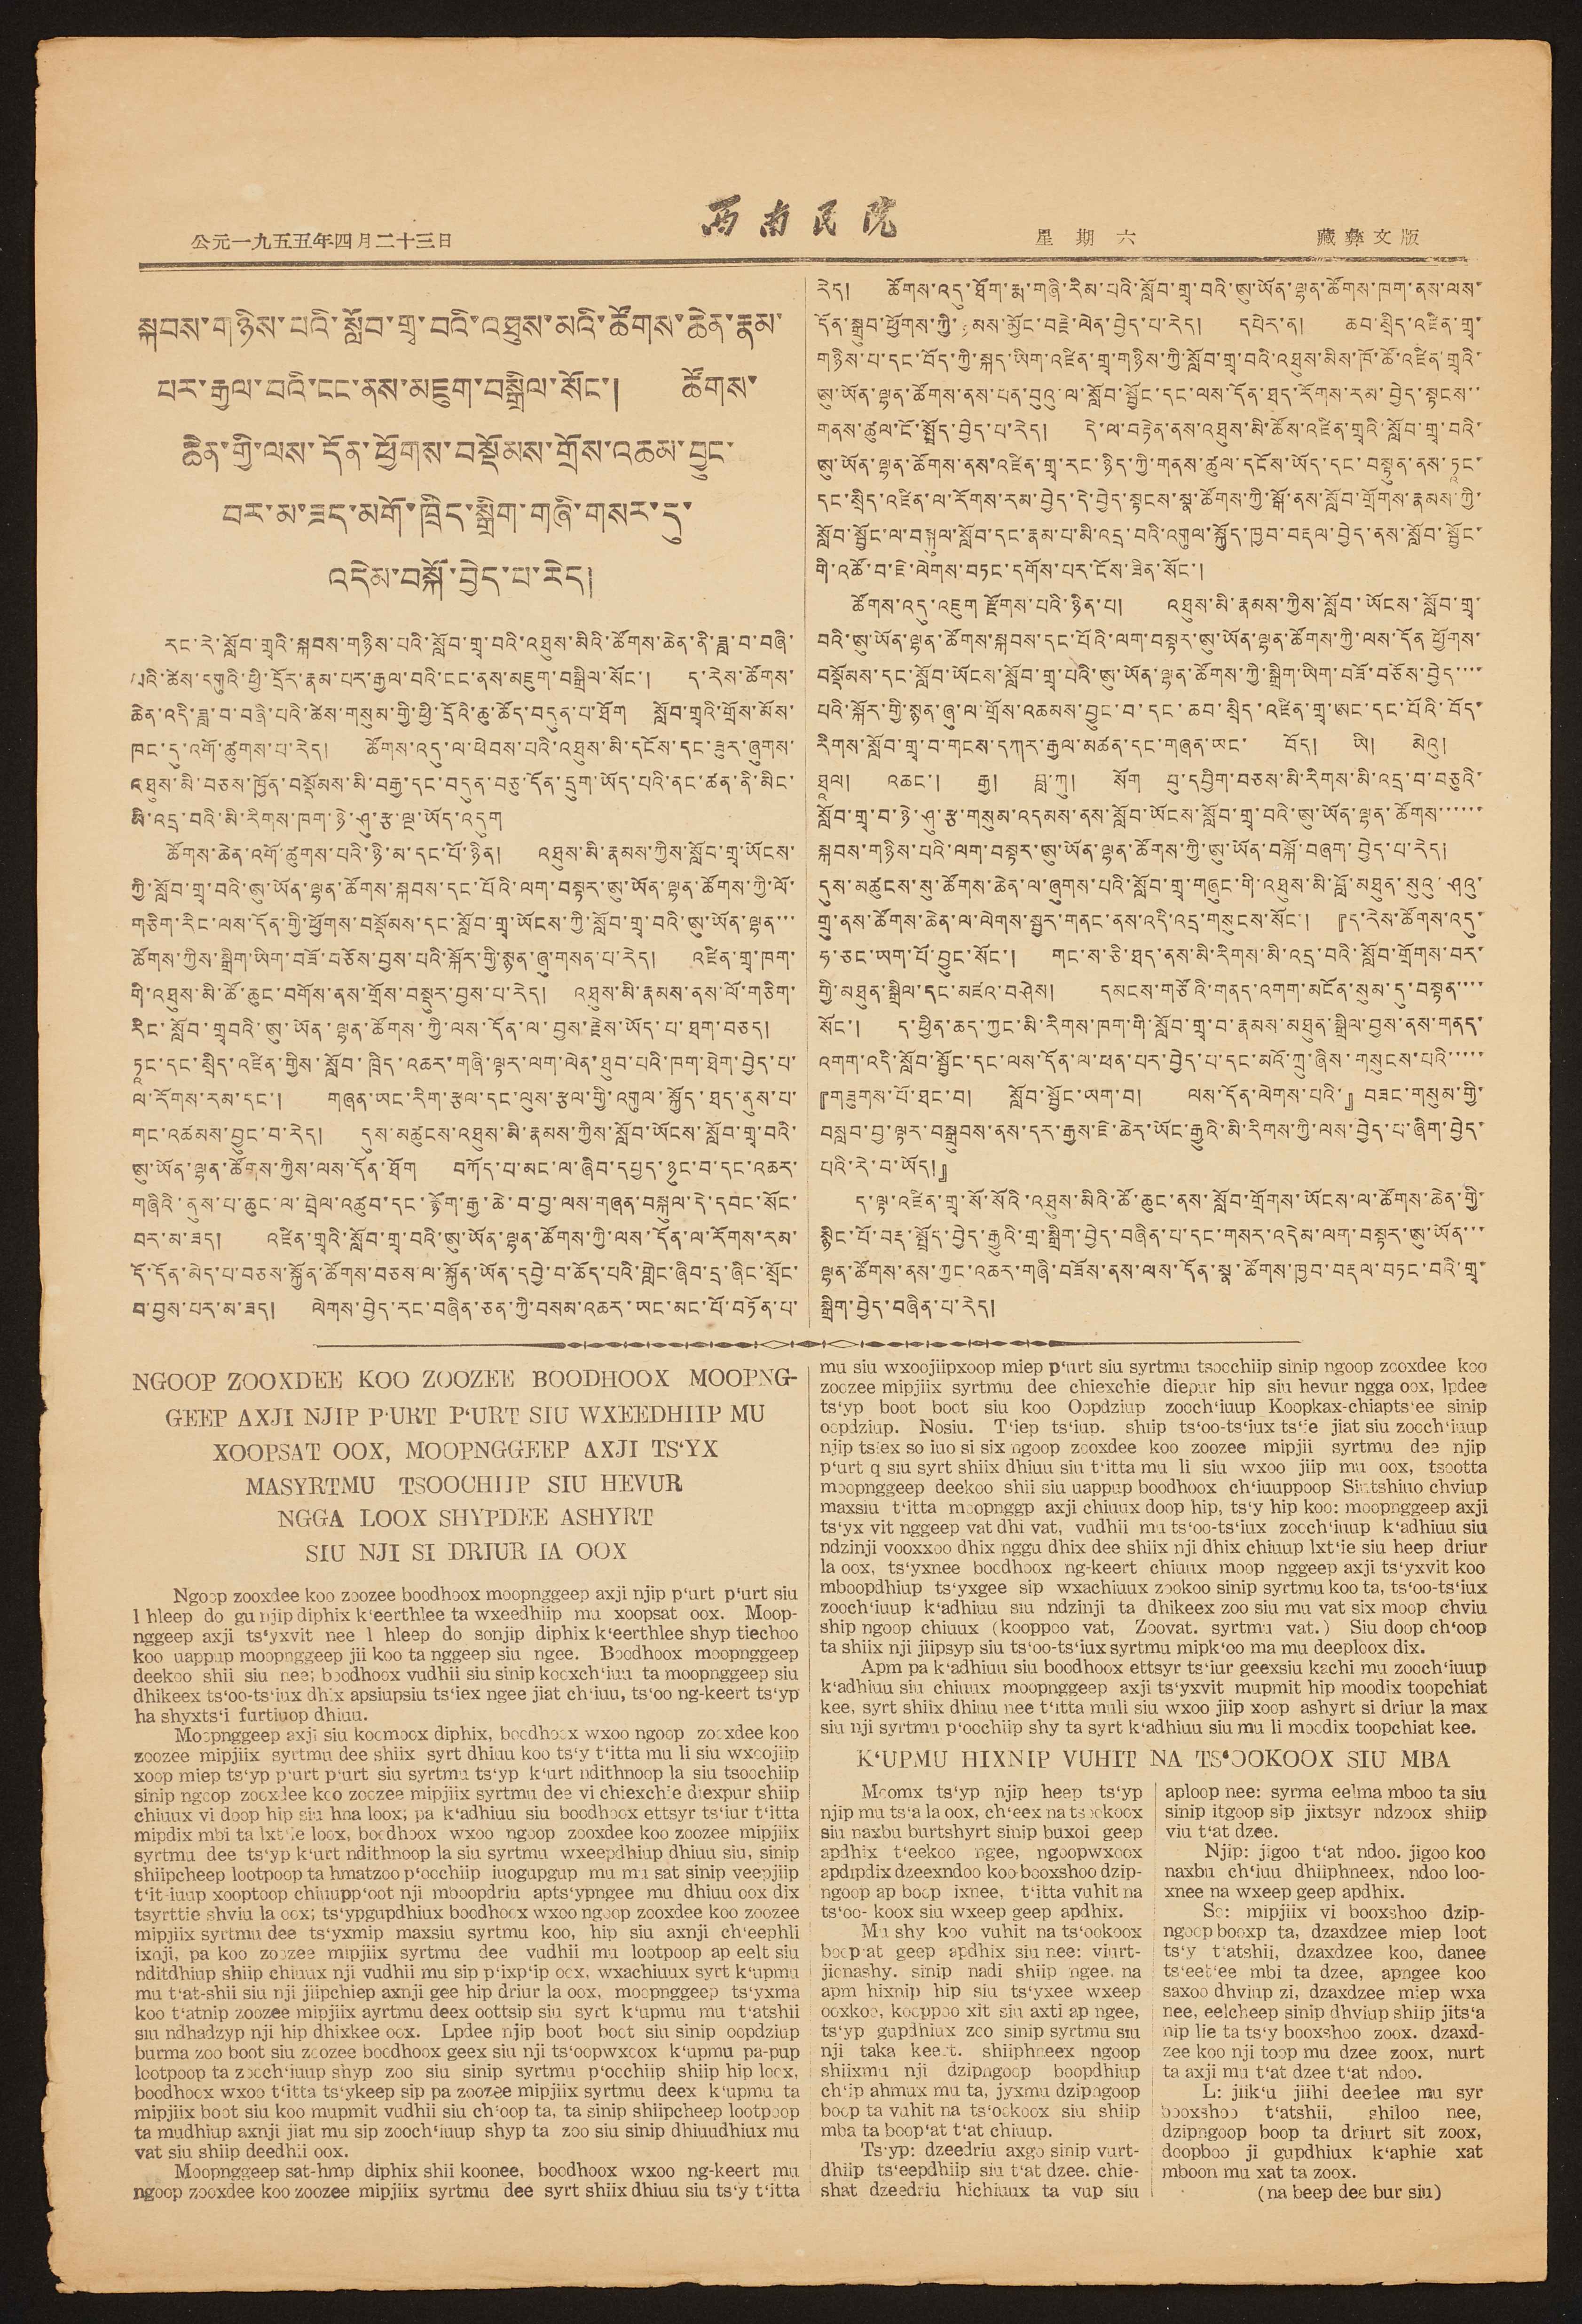公元一九五五年四月二十三日 西南民院 星期六 藏彝文版
སྐབས་གཉིས་པའི་སློབ་གྲྭ་བའི་འཐུས་མའི་ཚོགས་ཆེན་རྣམ་
པར་རྒྱལ་བའི་ངང་ནས་མཇུག་བསྒྲིལ་སོང་། ཚོགས་
ཆེན་གྱི་ལས་དོན་ཕྱོགས་བསྡོམས་གྲོས་འཆམ་བྱུང་
བར་མ་ཟད་མགོ་ཁྲིད་སྒྲིག་གཞི་གསར་དུ་
འདེམ་བསྐོ་བྱེད་པ་རེད།
རང་རེ་སློབ་གྲྭའི་སྐབས་གཉིས་པའི་སློབ་གྲྭ་བའི་འཐུས་མིའི་ཚོགས་ཆེན་ནི་ཟླ་བ་བཞི་
པའི་ཚེས་དགུའི་ཕྱི་དྲོར་རྣམ་པར་རྒྱལ་བའི་ངང་ནས་མཇུག་བསྒྲིལ་སོང་། ད་རེས་ཚོགས་
ཆེན་འདི་ཟླ་བ་བཞི་པའི་ཚེས་གསུམ་གྱི་ཕྱི་དྲོའི་ཆུ་ཚོད་བདུན་པ་ཐོག སློབ་གྲྭའི་གྲོས་མོས་
ཁང་དུ་འགོ་ཚུགས་པ་རེད། ཚོགས་འདུ་ལ་ཕེབས་པའི་འཐུས་མི་དངོས་དང་ཟུར་ཞུགས་
འཐུས་མི་བཅས་ཁྱོན་བསྡོམས་མི་བརྒྱ་དང་བདུན་བཅུ་དོན་དྲུག་ཡོད་པའི་ནང་ཚན་ནི་མིང་
མི་འདྲ་བའི་མི་རིགས་ཁག་ཉེ་ཤུ་རྩ་ལྔ་ཡོད་འདུག
ཚོགས་ཆེན་འགོ་ཚུགས་པའི་ཉི་མ་དང་པོ་ཉིན། འཐུས་མི་རྣམས་ཀྱིས་སློབ་གྲྭ་ཡོངས་
ཀྱི་སློབ་གྲྭ་བའི་ཨུ་ཡོན་ལྷན་ཚོགས་སྐབས་དང་པོའི་ལག་བསྟར་ཨུ་ཡོན་ལྷན་ཚོགས་ཀྱི་ལོ་
གཅིག་རིང་ལས་དོན་གྱི་ཕྱོགས་བསྡོམས་དང་སློབ་གྲྭ་ཡོངས་ཀྱི་སློབ་གྲྭ་བའི་ཨུ་ཡོན་ལྷན་་་
ཚོགས་ཀྱིས་སྒྲིག་ཡིག་བཟོ་བཅོས་བྱས་པའི་སྐོར་གྱི་སྙན་ཞུ་གསན་པ་རེད། འཛིན་གྲྭ་ཁག་
གི་འཐུས་མི་ཚོགས་ཆུང་བགོས་ནས་གྲོས་བསྡུར་བྱས་པ་རེད། འཐུས་མི་རྣམས་ནས་ལོ་གཅིག་
རིང་སློབ་གྲྭ བའི་ཨུ་ཡོན་ལྷན་ཚོགས་ཀྱི་ལས་དོན་ལ་བྱས་རྗེས་ཡོད་པ་ཐག་བཅད།
ཏཱང་དང་སྲིད་འཛིན་གྱིས་སློབ་ཁྲིད་འཆར་གཞི་ལྟར་ལག་ལེན་ཐུབ་པའི་ཁག་ཐེག་བྱེད་པ་
ལ་རོགས་རམ་དང་། གཞན་ཡང་རིག་རྩལ་དང་ལུས་རྩལ་གྱི་འགུལ་སྐྱོད་ཐད་ནུས་པ་
གང་འཚམས་བྱུང་བ་རེད། དུས་མཚུངས་འཐུས་མི་རྣམས་ཀྱིས་སློབ་ཡོངས་སློབ་གྲྭ་བའི་
ཨུ་ཡོན་ལྷན་ཚོགས་ཀྱིས་ལས་དོན་ཐོག བཀོད་པ་མང་ལ་ཞིབ་དཔྱད་ཉུང་བ་དང་འཆར་
གཞིའི་ནུས་པ་ཆུང་ལ་བྲེལ་འཚུབ་དང་རྙོག་རྒྱ་ཆེ་བ་བྱ་ལས་གཞན་བསྐུལ་དེ་དབང་སོང་
བར་མ་ཟད། འཛིན་གྲྭའི་སློབ་གྲྭ་བའི་ཨུ་ཡོན་ལྷན་ཚོགས་ཀྱི་ལས་དོན་ལ་རོགས་རམ་
དོ་དོན་མེད་པ་བཅས་སྐྱོན་ཚོགས་བཅས་ལ་སྐྱོན་ཡོན་དབྱེད་བ་ཆོད་པའི་གླེང་ཞིབ་དྲ་ཞིང་སྲོང་
བ་བྱས་པར་མ་ཟད། ལེགས་བྱེད་རང་བཞིན་ཅན་ཀྱི་བསམ་འཆར་ཡང་མང་པོ་བཏོན་པ་
རེད། ཚོགས་འདུ་ཐོག་རྨ་གཞི་རིམ་པའི་སློབ་གྲྭ་བའི་ཨུ་ཡོན་ལྷན་ཚོགས་ཁག་ནས་ལས་
དོན་སྒྲུབ་ཕྱོགས་ཀྱི་ཉམས་མྱོང་བརྗེ་ལེན་བྱེད་པ་རེད། དཔེར་ན། ཆབ་སྲིད་འཛིན་གྲྭ་
གཉིས་པ་དང་བོད་ཀྱི་སྐད་ཡིག་འཛིན་གྲྭ་གཉིས་ཀྱི་སློབ་གྲྭ་བའི་འཐུས་མིས་ཁོ་ཚོ་འཛིན་གྲྭའི་
ཨུ་ཡོན་ལྷན་ཚོགས་ནས་པན་བུའུ་ལ་སློབ་སྦྱོང་དང་ལས་དོན་ཐད་རོགས་རམ་བྱེད་སྟངས་་
གནས་ཚུལ་ངོ་སྤྲོད་བྱེད་པ་རེད། དེ་ལ་བརྟེན་ནས་འཐུས་མི་ཚོས་འཛིན་གྲྭའི་སློབ་གྲྭ་བའི་
ཨུ་ཡོན་ལྷན་ཚོགས་ནས་འཛིན་གྲྭ་རང་ཉིད་ཀྱི་གནས་ཚུལ་དངོས་ཡོད་དང་བསྟུན་ནས་ཏཱང་
དང་སྲིད་འཛིན་ལ་རོགས་རམ་བྱེད་དེ་བྱེད་སྟངས་སྣ་ཚོགས་ཀྱི་སྒོ་ནས་སློབ་གྲོགས་རྣམས་ཀྱི་
སློབ་སྦྱོང་ལ་སྦཀུལ་སློབ་དང་རྣམ་པ་མི་འདྲ་བའི་འགུལ་སྐྱོད་ཁྱབ་བརྡལ་བྱེད་ནས་སློབ་སྦྱོང་
གི་འཚོ་བ་ཇེ་ལེགས་བཏང་དགོས་པར་ངོས་ཟིན་སོང་།
ཚོགས་འདུ་འཇུག རྫོགས་པའི་ཉིན་པ། འཐུས་མི་རྣམས་ཀྱིས་སློབ་ཡོངས་སློབ་གྲྭ་
བའི་ཨུ་ཡོན་ལྷན་ཚོགས་སྐབས་དང་པོའི་ལག་བསྟར་ཨུ་ཡོན་ལྷན་ཚོགས་ཀྱི་ལས་དོན ཕྱོགས་
བསྡོམས་དང་སློབ་ཡོངས་སློབ་གྲྭ་པའི་ཨུ་ཡོན་ལྷན་ཚོགས་ཀྱི་སྒྲིག་ཡིག་བཟོ་བཅོས་བྱེད་་་་
པའི་སྐོར་གྱི་སྙན་ཞུ་ལ་གྲོས་འཆམས་བྱུང་བ་དང་ཆབ་སྲིད་འཛིན་གྲྭ་ཨང་དང་པོའི་བོད་
རིགས་སློབ་གྲྭ་བ་གངས་དཀར་རྒྱལ་མཚན་དང་གཞན་ཡང་ བོད། ཡི། མེའུ།
ཐཱལ། འཆང་། རྒྱ། བླ་ཀུ། སོག བུ་དབྱིག་བཅས་མི་རིགས་མི་འདྲ་བ་བཅུའི་
སློབ་གྲྭ་བ་ཉེ་ཤུ་རྩ་གསུམ་འདམས་ནས་སློབ་ཡོངས་སློབ་གྲྭ་བའི་ཨུ་ཡོན་ལྷན་ཚོགས་་་་་་
སྐབས་གཉིས་པའི་ལག་བསྟར་ཨུ་ཡོན་ལྷན་ཚོགས་ཀྱི་ཨུ་ཡོན་བསྐོ་བཞག་བྱེད་པ་རེད།
དུས་མཚུངས་སུ་ཚོགས་ཆེན་ལ་ཞུགས་པའི་སློབ་གྲྭ་གཞུང་གི་འཐུས་མི་བློ་མཐུན་སུའུ་ཤའུ་
གྲུ་ནས་ཚོགས་ཆེན་ལ་ལེགས་སྦྱར་གནང་ནས་འདི་འདྲ་གསུངས་སོང་། 『ད་རེས་ཚོགས་འདུ་
ཧ་ཅང་ཡག་པོ་བྱུང་སོང་། གང་ས་ཅི་ཐད་ནས་མི་རིགས་མི་འདྲ་བའི་སློབ་གྲོགས་བར་
གྱི་མཐུན་སྒྲིལ་དང་མཛའ་བཤེས། དམངས་གཙོའི་གནད་འགག་མངོན་སུམ་དུ་བསྟན་་་་
སོང་། ད་ཕྱིན་ཆད་ཀྱང་མི་རིགས་ཁག་གི་སློབ་གྲྭ་བ་རྣམས་མཐུན་སྒྲིལ་བྱས་ནས་གནད་
འགག་འདི་སློབ་སྦྱོང་དང་ལས་དོན་ལ་ཕན་པར་བྱེད་པ་དང་མའོ་ཀྲུ་ཞིས་གསུངས་པའི་་་་་
『གཟུགས་པོ་ཐང་བ། སློབ་སྦྱོང་ཡག་བ། ལས་དོན་ལེགས་པའི་』བཟང་གསུམ་གྱི་
བསླབ་བྱ་ལྟར་བསྒྲུབས་ནས་དར་རྒྱས་ཇེ་ཆེར་ཡོང་རྒྱུའི་མི་རིགས་ཀྱི་ལས་བྱེད་པ་ཞིག་བྱེད་
པའི་རེ་བ་ཡོད།』
ད་ལྟ་འཛིན་གྲྭ་སོ་སོའི་འཐུས་མིའི་ཚོ་ཆུང་ནས་སློབ་གྲོགས་ཡོངས་ལ་ཚོགས་ཆེན་གྱི་
སྙིང་པོ་བརྡ་སྤྲོད་བྱེད་རྒྱུའི་གྲ་སྒྲིག་བྱེད་བཞིན་པ་དང་གསར་འདེམ་ལག་བསྟར་ཨུ་ཡོན་་་
ལྷན་ཚོགས་ནས་ཀྱང་འཆར་གཞི་བཟོས་ནས་ལས་དོན་སྣ་ཚོགས་ཁྱབ་བརྡལ་བཏང་བའི་གྲྭ་
སྒྲིག་བྱེད་བཞིན་པ་རེད།
NGOOP ZOOXDEE KOO ZOOZEE BOODHOOX MOOPNG-
GEEP AXJI NJIP P'URT P'URT SIU WXEEDHIIP MU
XOOPSAT OOX, MOOPNGGEEP AXJI TS'YX
MASYRTMU TSOOCHIIP SIU HEVUR
NGGA LOOX SHYPDEE ASHYRT
SIU NJI SI DRIUR IA OOX
Ngoop zooxdee koo zoozee boodhoox moopnggeep axji njip p'urt p'urt siu
l hleep do gu njip diphix k'eerthlee ta wxeedhiip mu xoopsat oox. Moop-
nggeep axji ts'yxvit nee l hleep do sonjip diphix k'eerthlee shyp tiechoo
koo uappup moopnggeep jii koo ta nggeep siu ngee. Boodhoox moognggeep
deekoo shii siu nee; boodhoox vudhii siu sinip kooxch'iuu ta moopnggeep siu
dhikeex ts'oo-ts'iux dhix apsiupsiu ts'iex ngee jiat ch'iuu, ts'oo ng-keert ts'yp
ha shyxts'i furtiuop dhiuu.
Moopnggeep axji siu koomoox diphix, boodhoox wxoo ngoop zooxdee koo
zoozee mipjiix syrtmu dee shiix syrt dhiuu koo ts'y t'itta mu li siu wxoojiip
xoop miep ts'yp p'urt p'urt siu syrtmu ts'yp k'urt ndithnoop la siu tsoochiip
sinip ngoop zooxdee koo zoozee mipjiix syrtmu dee vi chiexchie diexpur shiip
chiuux vi doop hip siu hna loox; pa k'adhiuu siu boodhoox ettsyr ts'iur t'itta
mipdix mbi ta lxt'ie loox, boodhoox wxoo ngoop zooxdee koo zoozee mipjiix
syrtmu dee ts'yp k'urt ndithnoop la siu syrtmu wxeepdhiup dhiuu siu, sinip
shiipcheep lootpoop ta hmatzoo p'oochiip iuogupgup mu mu sat sinip veepjiip
t'it-iuup xooptoop chiuupp'oot nji mboopdriu apts'ypngee mu dhiuu oox dix
tsyrttie shviu la oox; ts'ypgupdhiux boodhoox wxoo ngoop zooxdee koo zoozee
mipjiix syrtmu dee ts'yxmip maxsui syrtmu koo, hip siu axnji ch'eephli
ixnji,pa koo zoozee mipjiix syrtmu dee vudhii mu lootpoop ap eelt siu
nditdhiup shiip chiuux nji vudhii mu sip p'ixp'ip oox, wxachiuux syrt k'upmu
mu t'at-shii siu nji jiipchiep axnji gee hip driur la oox, moopnggeep ts'yxma
koo t'atnip zoozee mipjiix ayrtmu deex oottsip siu syrt k'upmu mu t'atshii
siu ndhadzyp nji hip dhixkee oox. Lpdee njip boot boot siu sinip oopdziup
burma zoo boot siu zoozee boodhoox geex siu nji ts'oopwxcox k'upmu pa'pup
lootpoop ta zooch'iuup snyp zoo siu sinip syrtmu p'occhiip shiip hip loox,
boodhoox wxoo t'itta ts'ykeep sip pa zoozee mipjiix syrtmu deex k'upmu ta
mipjiix boot siu koo mupmit vudhii siu ch'oop ta, ta sinip shiipcheep lootpoop
ta mudhiup axnji jiat mu sip zooch'iuup shyp ta zoo siu sinip dhiuudhiux mu
vat siu shiip deedhii oox.
Moopnggeep sat-hmp diphix shii koonee, boodhoox wxoo ng-keert mu
ngoop zooxdee koo zoozee nipjiix syrtmu dee syrt shiix dhiuu siu ts'y t'itta
mu siu wxoojiipxoop miep p'urt siu syrtmu tsoochiip sinip ngoop zooxdee koo
zoozee mipjiix syrtmu dee chiexchie diepur hip siu hevur ngga oox, lpdee
ts'yp boot boot siu koo Oopdziup zooch'iuup Koopkax-chiapts'ee sinip
oopdziup. Nosiu. T'iep ts'iup. shiip ts'oo-ts'iux ts'ie jiat siu zooch'iuup
njip tsiex so iuo si six ngoop zooxdee koo zoozee mipjii syrtmu dee njip
p'urt q siu syrt shiix dhiuu siu t'itta mu li siu wxoo jiip mu oox, tsootta
moopnggeep deekoo shii siu uappup boodhoox chi'iuuppoop Siutshiuo chviup
maxsiu t'itta moopnggp axji chiuux doop hip, ts'y hip koo: moopnggeep axji
ts'yx vit nggeep vat dhi vat, vudhii mu ts'oo-ts'iux zooch'iuup k'adhiuu siu
ndzinji vooxxoo dhix nggu dhix dee shiix nji dhix chiuup lxt'ie siu heep driur
la oox, ts'yxnee boodhoox ng-keert chiuux moop nggeep axji ts'yxvit koo
mboopdhiup ts'yxgee sip wxachiuux zookoo sinip syrtmu koo ta, ts'oo-ts'iux
zooch'iuup k'adhiuu siu ndzinji ta dhikeex zoo siu mu vat six moop chviu
ship ngoop chiuux (kooppoo vat, Zoovat. syrtmu vat.) Siu doop ch'oop
ta shiix nji jiipsyp siu ts'oo-ts'iux syrtmu mipk'oo ma mu deeploox dix.
Apm pa k'adhiuu siu boodhoox ettsyr ts'iur geexsiu kachi mu zooch'iuup
k'adhiuu siu chiuux moopnggeep axji ts'yxvit mupmit hip moodix toopchiat
kee, syrt shiix dhiuu nee t'itta muli siu wxoo jiip xoop ashyrt si driur la max
siu nji syrtmu p'occhiip shy ta syrt k'adhiuu siu mu li moodix toopchiat kee.
K'UPMU HIXNIP VUHIT NA TS'OOKOOX SIU MBA
Moomx ts'yp njip heep ts'yp
njip mu ts'a la oox, ch'eex na tsookoox
siu naxbu burtshyrt sinip buxoi geep
apdhix t'eekoo ngee, ngoopwxoox
apdipdix dzeexndoo koo booxshoo dzip-
ngoop ap boop ixnee, t'itta vuhit na
ts'oo-koox siu wxeep geep apdhix.
Mu shy koo vuhit na ts'ookoox
boop'at geep apdhix siu nee: viurt-
jionashy. sinip nadi shiip ngee. na
apm hixnip hip siu ts'yxee wxeep
ooxkoo, kooppoo xit siu axti ap ngee,
ts'yp gupdhiux zoo sinip syrtmu siu
nji taka keert. shiiphneex ngoop
shiixmu nji dzipngoop boopdhiup
ch'ip ahmux mu ta, jyxmu dzipngoop
boop ta vuhit na ts'ookoox siu shiip
mba ta boop'at t'at chiuup.
Ts'yp: dzeedriu axgo sinip vurt-
dhiip ts'eepdhiip siu t'at dzee. chie-
shat dzeedriu hichiuux ta vup siu
aploop nee: syrma eelma mboo ta siu
sinip itgoop sip jixtsyr ndzoox shiip
viu t'at dzee.
Njip: jigoo t'at ndoo. jigoo koo
naxbu ch'iuu dhiiphneex, ndoo loo-
xnee na wxeep geep apdhix.
So: mipjiix vi booxshoo dzip-
ngoop booxp ta, dzaxdzee miep loot
ts'y t'atshii, dzaxdzee koo, danee
ts'eet'ee mbi ta dzee, apngee koo
saxoo dhviup zi, dzaxdzee miep wxa
nee, eelcheep sinip dhviup shiip jits'a
nip lie ta ts'y booxshoo zoox. dzaxd-
zee koo nji toop mu dzee zoox, nurt
ta axji mu t'at dzee t'at ndoo.
L: jiik'u jiihi deedee mu syr
booxshoo t'atshii, shiloo nee,
dzipngoop boop ta driurt sit zoox,
doopboo ji gupdhiux k'aphie xat
mboon mu xat ta zoox.
(na beep dee bur siu)
